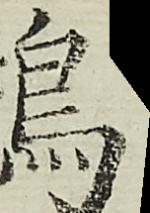鵁
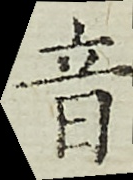音
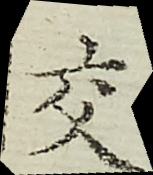交
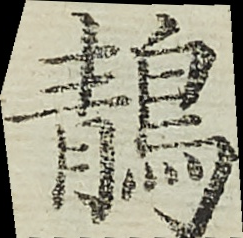鶄
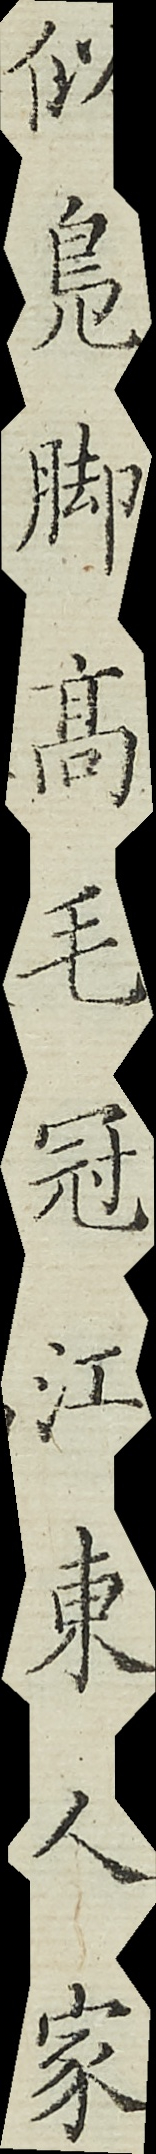似鳧腳高毛冠江東人家
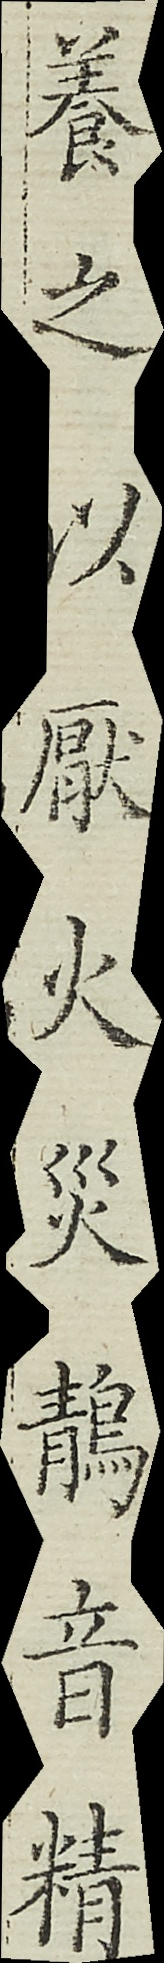養之以厭火災鶄音精
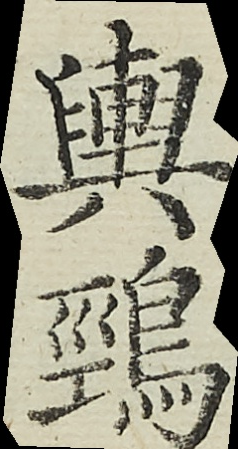輿鵛
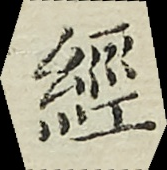經
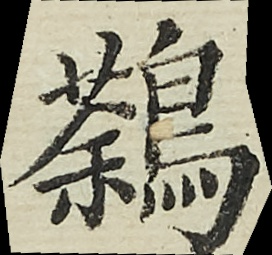鷋
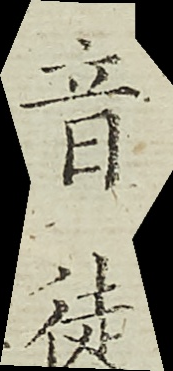音徒
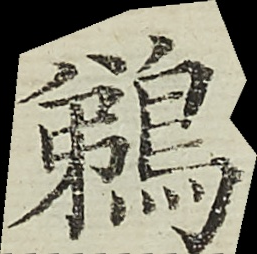鵜
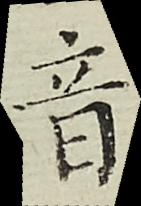音
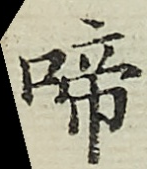啼
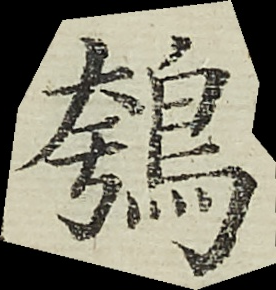鴮
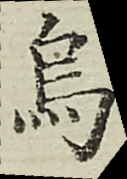鳥
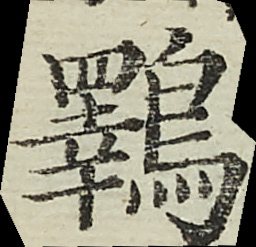鸅
